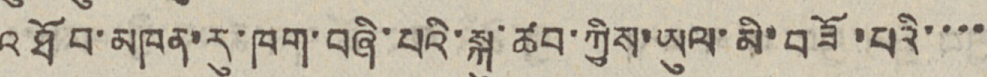འཐོབ་མཁན་རུ་ཁག་བཞི་པའི་སྐུ་ཚབ་ཀྱིས་ཡུལ་མི་བཟོ་པའི་་་་
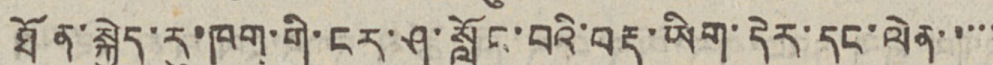ཐོན་སྐྱེད་རུ་ཁག་གི་ངར་ཤ་སློང་བའི་བརྡ་ཡིག་དེར་དང་ལེན་་་་་
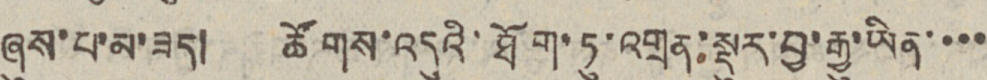ཞུས་པ་མ་ཟད། ཚོགས་འདུའི་ཐོག་ཏུ་འགྲན་སྡུར་བྱ་རྒྱུ་ཡིན་་་་
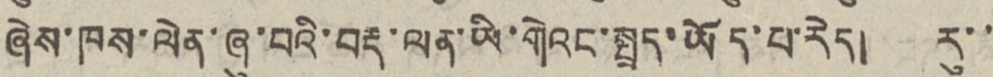ཞེས་ཁས་ལེན་ཞུ་བའི་བརྡ་ལན་ཡི་གེའང་སྤྲད་ཡོད་པ་རེད། རུ་་
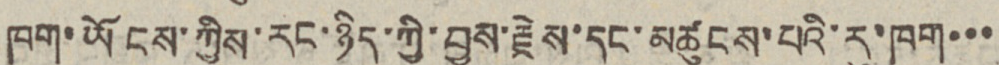ཁག་ཡོངས་ཀྱིས་རང་ཉིད་ཀྱི་བྱས་རྗེས་དང་མཚངས་པའི་རུ་ཁག་་་
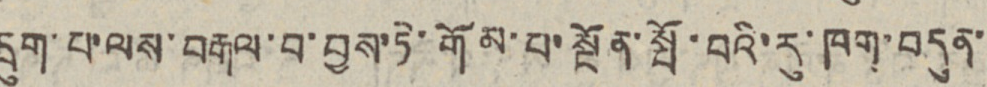དྲུག་པ་ལས་བརྒལ་བ་བྱས་ཏེ་གོམ་པ་སྔོན་སྤོ་བའི་རུ་ཁག་བདུན་
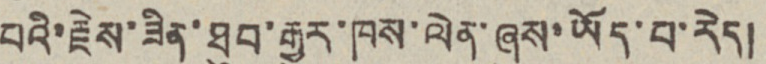པའི་རྗེས་ཟིན་ཐུབ་རྒྱུར་ཁས་ལེན་ཞུས་ཡོད་པ་རེད།
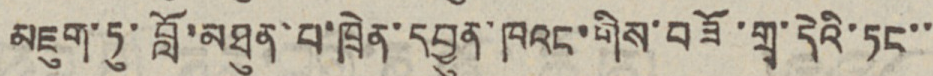མཇུག་ཏུ་བློ་མཐུན་པ་ཁྲེན་དབྱུན་ཁའང་གིས་བཟོ་གྲྭ་དེའི་ཏང་་
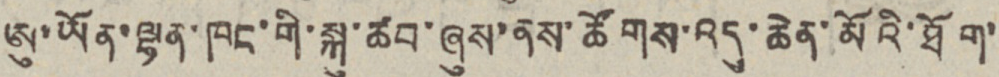ཨུ་ཡོན་ལྷན་ཁང་གི་སྐུ་ཚབ་ཞུས་ནས་ཚོགས་འདུ་ཆེན་མོའི་ཐོག་
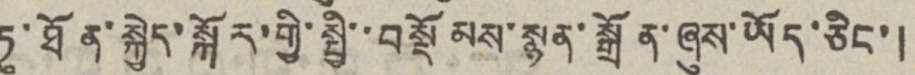ཏུ་ཐོན་སྐྱེད་སྐོར་གྱི་སྤྱི་་བསྡོམས་སྙན་སྒྲོན་ཞུས་ཡོད་ཅིང་།
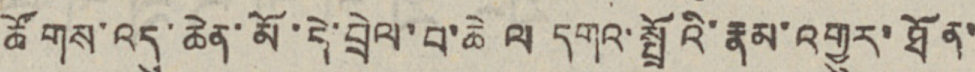ཚོགས་འདུ་ཆེན་མོ་དེ་བྲེལ་བ་ཆེ ལ དགའ་སྤྲོའི་རྣམ་འགྱུར་ཐོན་
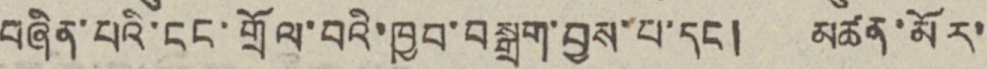བཞིན་པའི་ངང་གྲོལ་བའི་ཁྱབ་བསྒྲག་བྱས་པ་དང། མཚན་མོར་
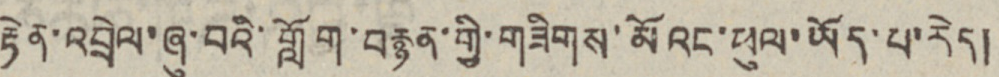རྟེན་འབྲེལ་ཞུ་བའི་གློག་བརྙན་གྱི་གཟིགས་མོའང་ཕུལ་ཡོད་པ་རེད།
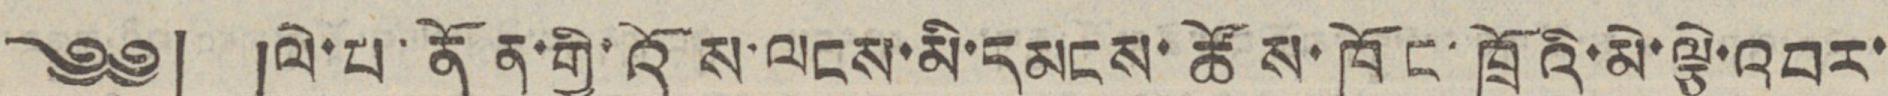༄༅། །ལེ་པ་ནོན་གྱི་འོས་ལངས་མི་དམངས་ཚོས་ཁོང་ཁྲོའི་མེ་ལྕེ་འབར་
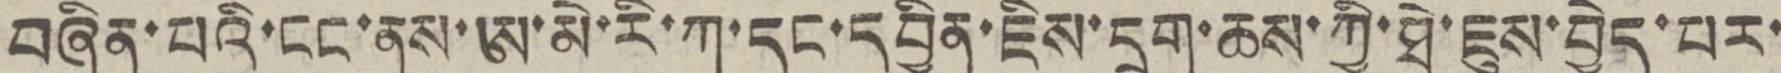བཞིན་པའི་ངང་ནས་ཨ་མེ་རི་ཀ་དང་དབྱིན་ཇིས་དྲག་ཆས་ཀྱི་ཐེ་ཇུས་བྱེད་པར་
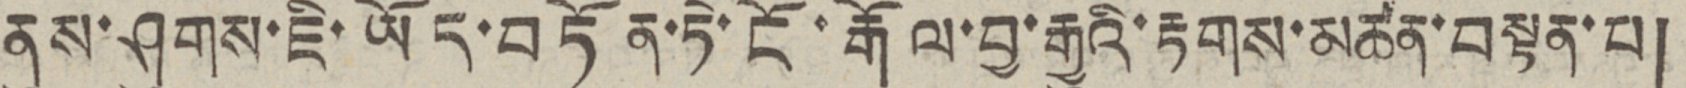ནུས་ཤུགས་ཇི་ཡོད་བཏོན་ཏེ་ངོ་རྒོལ་བྱ་རྒྱུའི་རྟགས་མཚན་བསྟན་པ།
